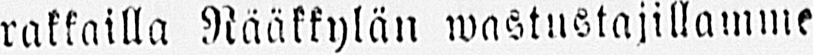rakkailla Rääkkylän wastustajillamme
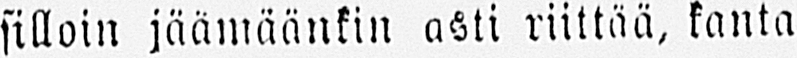silloin jäämäänkin asti riittää, kanta
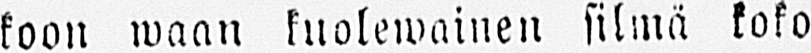koon waan kuolewainen silmä koko
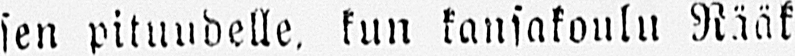sen pituudelle, kun kansakoulu Rää-
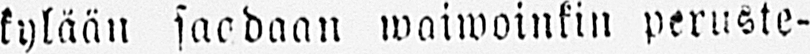kylään saadaan waiwoinkin peruste-
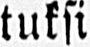tuksi
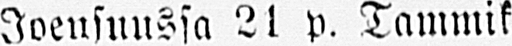Joensuussa 21 P. Tammik.
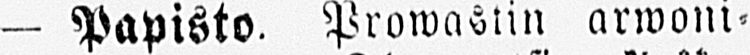— Papisto. Prowastin arwoni-
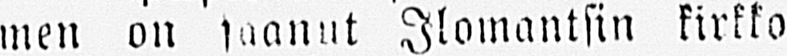men on saanut Ilomantsin kirkko
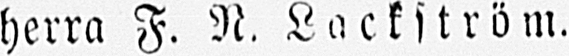herra F. N. Lackström.
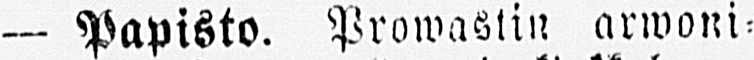— Papisto. Prowastin arwoni-
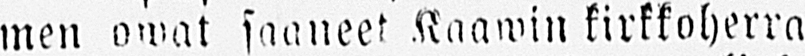men owat saaneet Kääwin kirkkoherra
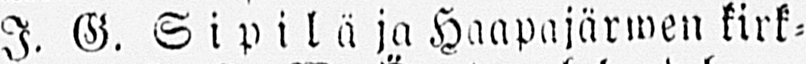I. G. Sipi lä ja Haapajärwen kirk-
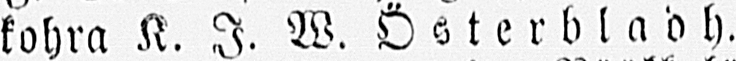kohra K. I. W. Österbladh.
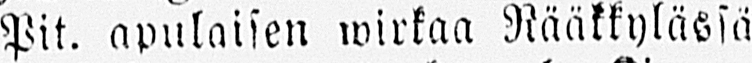Pit. apulaisen wirkaa Rääkkylässä
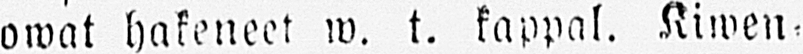owat hakeneet w. t. kappal. Kiwen-
